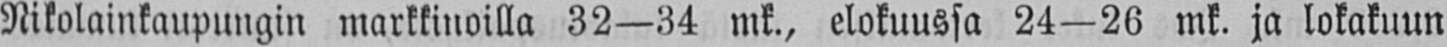Nikolainkaupungin markkinoilla 32—34 mk., elokuussa 24—26 mk. ja lokakuun
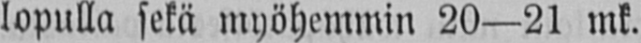lopulla sekä myöhemmin 20—21 mk.
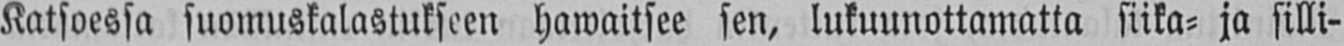Katsoessa suomuskalastukseen hawaitsee sen, lukuunottamatta siika- ja silli-
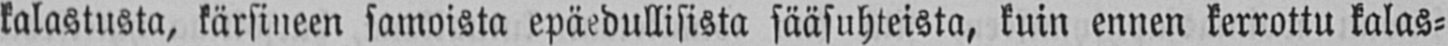kalastusta, kärsineen samoista epäedullisista sääsuhteista, kuin ennen kerrottu kalas-
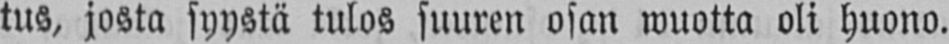tus, josta syystä tulos suuren osan wuotta oli huono.
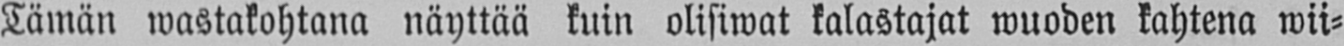Tämän wastakohtana näyttää kuin olisiwat kalastajat wuoden kahtena wii-
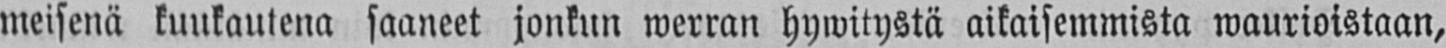meisenä kuukautena saaneet jonkun werran hywitystä aikaisemmista waurioistaan,
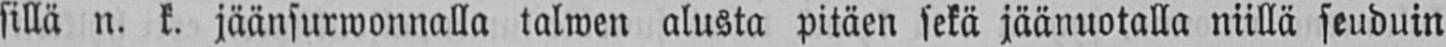sillä n. k. jäänsurwonnalla talwen alusta pitäen sekä jäänuotalla niillä seuduin
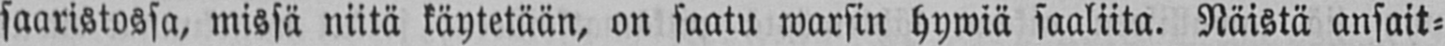saaristossa, missä niitä käytetään, on saatu warsin hywiä saaliita. Näistä ansait-
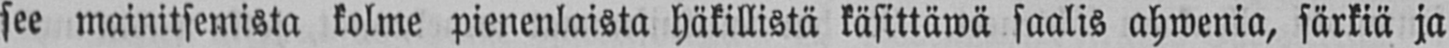see mainitsemista kolme pienenlaista häkillistä käsittäwä saalis ahwenia, särkiä ja
